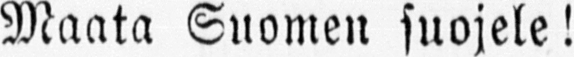Maata Suomen suojele!
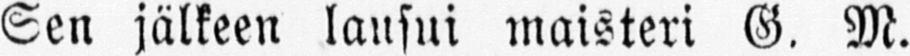Sen jälkeen lausui maisteri G. M.
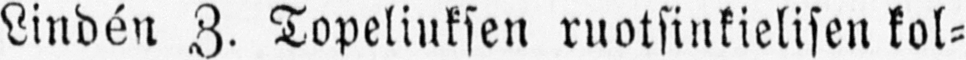Lindén Z. Topeliuksen ruotsinkielisen kol-
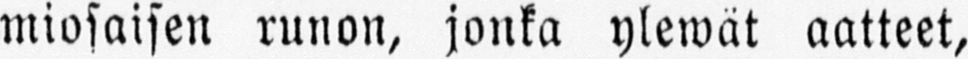miosaisen runon, jonka ylewät aatteet,
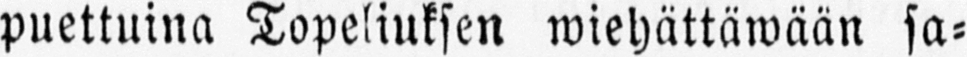puettuina Topeliuksen wiehättäwään sa-
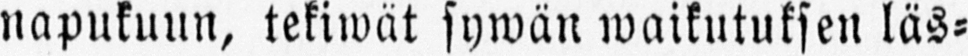napukuun, tekiwät sywän waikutuksen läs-
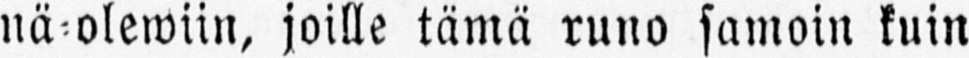nä-olewiin, joille tämä runo samoin kuin
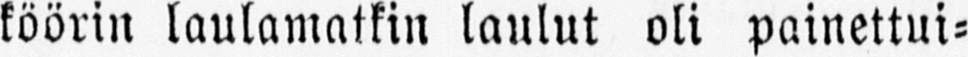köörin laulamatkin laulut oli painettui-
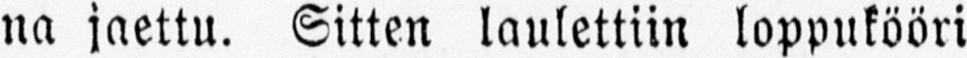na jaettu. Sitten laulettiin loppukööri
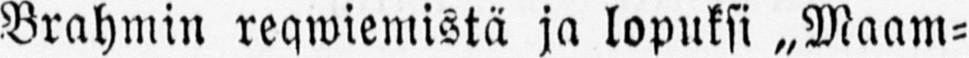Brahmin reqwiemistä ja lopuksi „Maam-
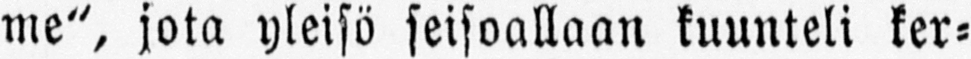me", jota yleisö seisoallaan kuunteli ker-
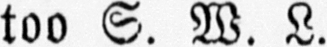too S. W. L.
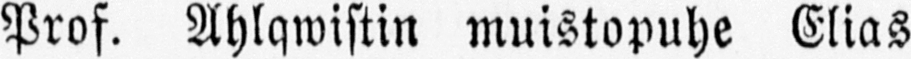Prof. Ahlqwistin muistopuhe Elias
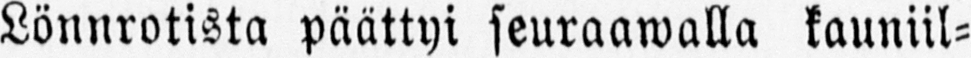Lönnrotista päättyi seuraawalla kauniil-
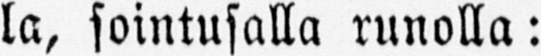la, sointusalla runolla:
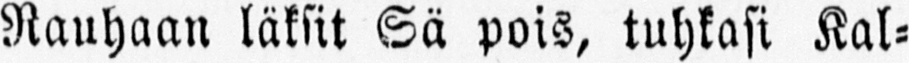Rauhaan läksit Sä pois, tuhkasi Kal-
